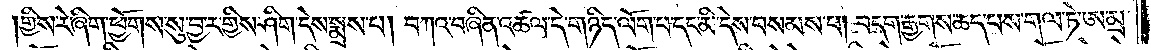གྱིས་རེ་ཞིག་ཕྱོགས་སུ་བྱ་ར་གྱིས་ཤིག་དེས་སྨྲས་པ། བཀའ་བཞིན་འཚལ་དེ་གཉིད་ལོག་པ་དང་མི་དེས་བསམས་པ། བདག་རྒྱགས་ཆད་པས་གལ་ཏེ་ཨ་མྲ་
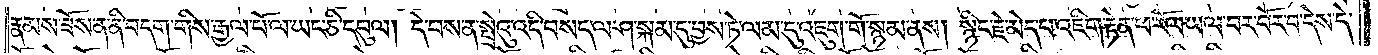རྣམས་ཟོས་ན་ནི་བདག་གིས་རྒྱལ་པོ་ལ་ཡང་ཅི་དབུལ། དེ་བས་ན་སྤྲེའུ་འདི་བསད་ལ་ཤ་སྐམ་དུ་བྱས་ཏེ་ལམ་དུ་འཇུག་གོ་སྙམ་ནས། སྙིང་རྗེ་མེད་པ་འཇིག་རྟེན་ཕ་རོལ་ཡལ་བར་བོར་བ་དེས་དེ་
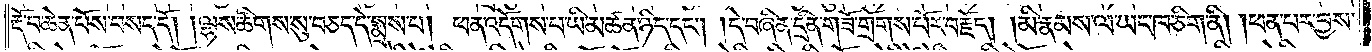རྡོ་བ་ཆེན་པོས་བསད་དོ། །ལྷས་ཚིགས་སུ་བཅད་དེ་སྨྲས་པ། ཕན་འདོགས་པ་ཡི་མཚན་ཉིད་དང༌། །དེ་བཞིན་དྲིན་གཟོ་གྲོགས་པོར་བརྗོད། །མི་རྣམས་ལ་ཡང་ཁ་ཅིག་ནི། །ཕན་པར་བྱས་
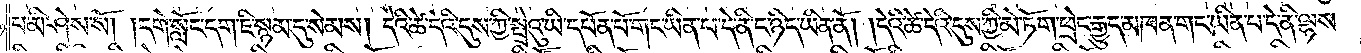པ་མི་ཤེས་སོ། །དགེ་སློང་དག་ཇི་སྙམ་དུ་སེམས། དེའི་ཚེ་དེའི་དུས་ཀྱི་སྤྲེའུ་ཡི་དཔོན་པོ་གང་ཡིན་པ་དེ་ནི་ང་ཉིད་ཡིན་ནོ། །དེའི་ཚེ་དེའི་དུས་ཀྱི་མེ་ཏོག་ཕྲེང་རྒྱུད་མཁན་གང་ཡིན་པ་དེ་ནི་ལྷས་
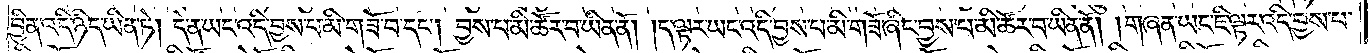བྱིན་འདི་ཉིད་ཡིན་ཏེ། དེ་ན་ཡང་འདི་བྱས་པ་མི་གཟོ་བ་དང༌། བྱས་པ་མི་ཚོར་བ་ཡིན་ནོ། །ད་ལྟར་ཡང་འདི་བྱས་པ་མི་གཟོ་ཞིང་བྱས་པ་མི་ཚོར་བ་ཡིན་ནོ། །གཞན་ཡང་ཇི་ལྟར་འདི་བྱས་པ་
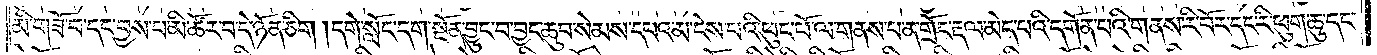མི་གཟོ་བ་དང་བྱས་པ་མི་ཚོར་བ་དེ་ཉོན་ཅིག །དགེ་སློང་དག་སྔོན་བྱུང་བ་བྱང་ཆུབ་སེམས་དཔའ་མ་ངེས་པའི་ཕུང་པོ་ལ་གནས་པ་ན་གྲོང་རྡལ་མེད་པའི་དགོན་པའི་གནས་རི་བོར་དང་རི་ཕུག་ཆུ་དང་
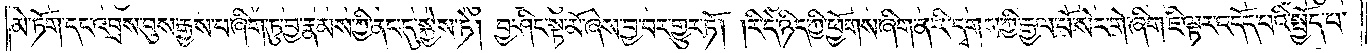མེ་ཏོག་དང་འབྲས་བུས་རྒྱས་པ་ཞིག་ཏུ་བྱ་རྣམས་ཀྱི་ནང་དུ་སྐྱེས་ཏེ། བྱ་ཤིང་སྟ་མོ་ཞེས་བྱ་བར་གྱུར་ཏོ། །རི་དེ་ཉིད་ཀྱི་ཕྱོགས་ཞིག་ན་རི་དྭགས་ཀྱི་རྒྱལ་པོ་སེང་གེ་ཞིག་ཇི་ལྟར་འདོད་པའི་སྤྱོད་པ་
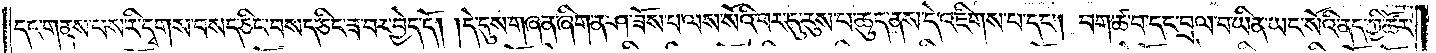དང་གནས་པས་རི་དྭགས་བསད་ཅིང་བསད་ཅིང་ཟ་བར་བྱེད་དོ། །དེ་དུས་གཞན་ཞིག་ན་ཤ་ཟོས་པ་ལས་སོའི་བར་དུ་རུས་པ་ཆུད་ནས་དེ་འཇིགས་པ་དང༌། བག་ཚ་བ་དང་བྲལ་བ་ཡིན་ཡང་སོའི་ནད་ཀྱི་ཚོར་
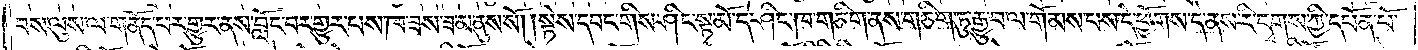བས་ལུས་ལ་གནོད་པར་གྱུར་ནས་བློང་བར་གྱུར་པས་ཁ་ཟས་ཟ་མ་ནུས་སོ། །སྟེས་དབང་གིས་ཤིང་སྟ་མོ་དེ་ཤིང་ཁ་གཅིག་ནས་གཅིག་ཏུ་རྒྱུ་བ་ལ་གོམས་པས་དེ་ཕྱོགས་དེ་ནས་རི་དྭགས་ཀྱི་དཔོན་པོ་
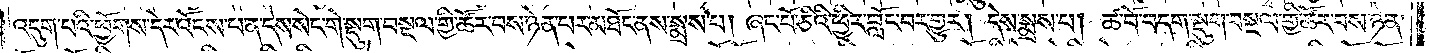འདུག་པའི་ཕྱོགས་དེར་འོངས་པ་ན་དེས་སེང་གེ་སྡུག་བསྔལ་གྱི་ཚོར་བས་ཉེན་པར་མཐོང་ནས་སྨྲས་པ། ཞང་པོ་ཅིའི་ཕྱིར་བློང་བར་གྱུར། དེས་སྨྲས་པ། ཚ་བོ་བདག་སྡུག་བསྔལ་གྱི་ཚོར་བས་ཉེན་
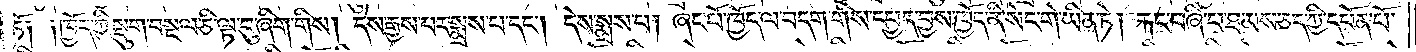ཏོ༑ ༑ ཁྱོད་ཀྱི་སྡུག་བསྔལ་ཅི་ལྟ་བུ་ཞིག་གིས། དེས་རྒྱས་པར་སྨྲས་པ་དང༌། དེས་སྨྲས་པ། ཞང་པོ་ཁྱོད་ལ་བདག་གིས་དཔྱད་བྱས་ཁྱོད་ནི་སེང་གེ་ཡིན་ཏེ། རྐང་བཞི་པ་ཐམས་ཅད་ཀྱི་དཔོན་པོ་
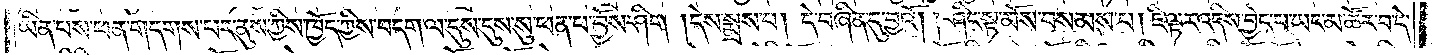ཡིན་པས་ཕན་གདགས་པར་ནུས་ཀྱིས་ཁྱོད་ཀྱིས་བདག་ལ་དུས་དུས་སུ་ཕན་པ་བྱོས་ཤིག །དེས་སྨྲས་པ། དེ་བཞིན་དུ་བྱའོ། །ཤིང་སྟ་མོས་བསམས་པ། ཇི་ལྟར་འདིས་བྱེད་པ་ཡང་མ་ཚོར་བ་དེ་
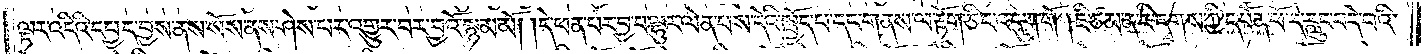ལྟར་འདིའི་དཔྱད་བྱས་ནས་སོས་ནས་ཤེས་པར་འགྱུར་བར་བྱའོ་སྙམ་མོ། །དེ་ཕན་པར་བྱ་བ་ལྷུར་ལེན་པས་དེའི་སྤྱོད་པ་དང་གནས་ལ་རྟོག་ཅིང་འདུག་གོ །ཇི་ཙམ་ན་རི་དྭགས་ཀྱི་དཔོན་པོ་དེ་རླུང་བདེ་བའི་
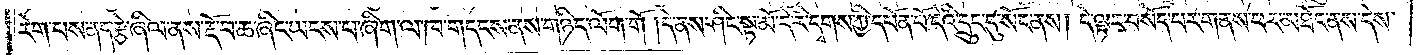རེག་པས་ནད་རྩེ་ཞིལ་ནས་རྡོ་བ་ཆ་ཞིང་ཡངས་པ་ཞིག་ལ་ཁ་གདངས་ནས་གཉིད་ལོག་གོ །དེ་ནས་ཤིང་སྟ་མོ་དེ་རི་དྭགས་ཀྱི་དཔོན་པོ་དེའི་དྲུང་དུ་སོང་ནས། དེ་ལྟར་བསོད་པར་གནས་པར་མཐོང་ནས་དེས་
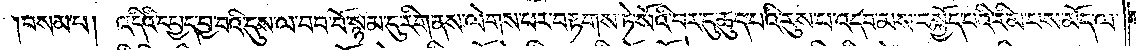བསམ་པ། འདིའི་དཔྱད་བྱ་བའི་དུས་ལ་བབ་པོ་སྙམ་དུ་རིག་ནས་ལེགས་པར་བརྟགས་ཏེ་སོའི་བར་དུ་ཆུད་པའི་རུས་པ་འདབ་མས་བསྐྱོད་པའི་རིམ་པས་མོད་ལ་
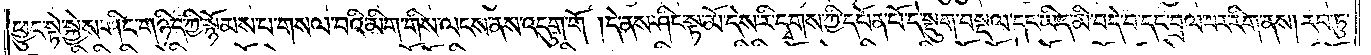ཕྱུང་སྟེ་སྐྱེས་ཤིང་གཉིད་ཀྱི་སྙོམས་པ་གསལ་བའི་མིག་གིས་ལངས་ནས་འདུག་གོ །དེ་ནས་ཤིང་སྟ་མོ་དེས་རི་དྭགས་ཀྱི་དཔོན་པོ་དེ་སྡུག་བསྔལ་དང་མིད་མི་བདེ་བ་དང་བྲལ་བར་རིག་ནས། རབ་ཏུ་
